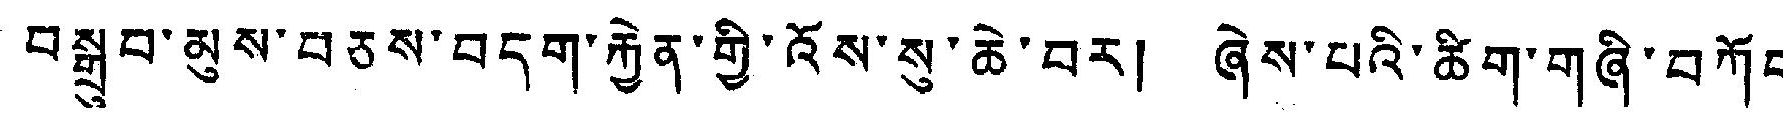བསྒྲུབ་མུས་བཅས་བདག་རྐྱེན་གྱི་འོས་སུ་ཆེ་བར། ཞེས་པའི་ཚིག་གཞི་བཀོད་
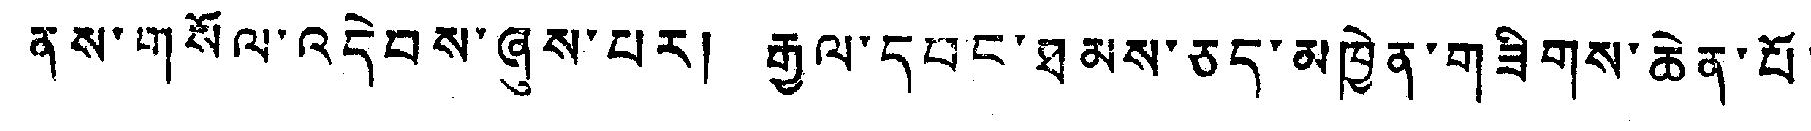ནས་གསོལ་འདེབས་ཞུས་པར། རྒྱལ་དཔང་ཐམས་ཅད་མཁྱེན་གཟིགས་ཆེན་པོ་
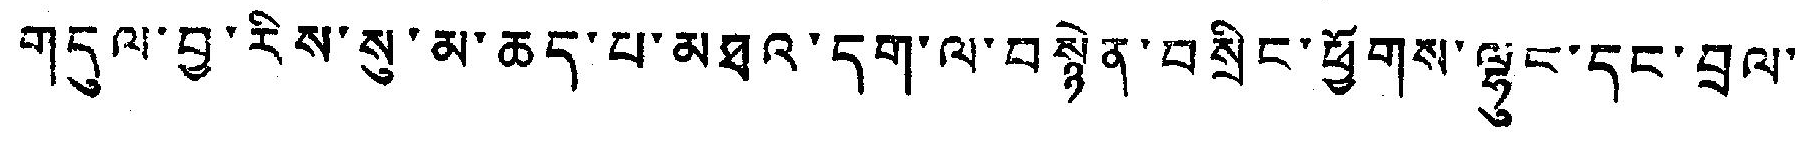གདུལ་བྱ་རིས་སུ་མ་ཆད་པ་མཐའ་དག་ལ་བསྙེན་བསྲིང་ཕྱོགས་ལྷུང་དང་བྲལ་
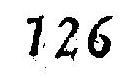126
